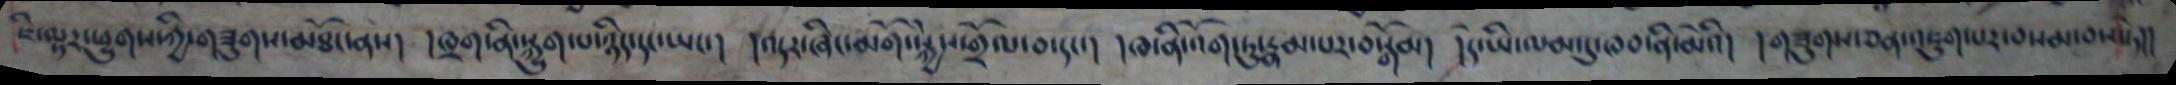ཇི་ལྟར་ཕྱུགས་ཀྱི་གཟུགས་མཐོང་ནས། །ཁྲག་ནི་སྐྱུག་པ་ཉིད་དང་ཡང་། །འདར་ཞིང་མགོ་སྐྱེས་གྲོལ་བ་དང་། །ཁ་ནི་འོག་ཏུ་རྣམ་པར་བསྒོམ། །དེ་ཡི་ལམ་དུ་ཁབ་ནི་མེའི། །གཟུགས་ཅན་འཇུག་པར་བསམ་བས་ཏེ།།
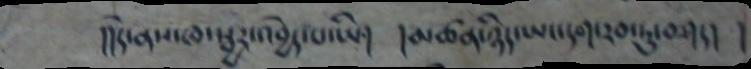།།དེ་ནས་ཁ་སྦྱར་འབྱེད་པ་ཡི། །མཚན་ཉིད་ཡང་དག་རབ་ཏུ་བཤད། །
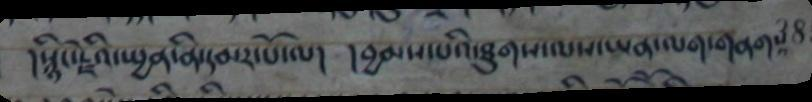།སྙིང་རྗེའི་སྤྱན་ནི་དམར་པོ་ལ།  །བྱམས་པའི་ཐུགས་ལས་ཡན་ལག་གནགས
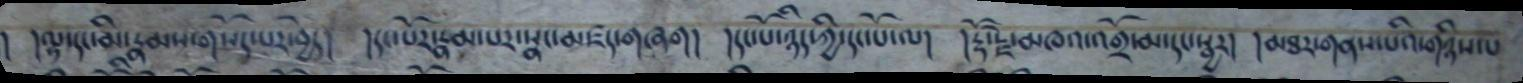། །ལྷ་དང་མི་རྣམས་གསོད་པར་བྱེད། །དང་པོར་རྣམ་པར་སྣང་མཛད་གཞག། །དང་པོ་ཉིད་ཀྱི་དང་པོ་ལ། །རྡོ་རྗེ་མཁའ་འགྲོ་མ་དང་སྦྱར། །མཐར་གནས་པའི་གཉིས་པ
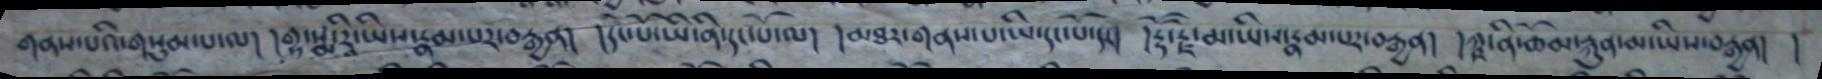གནས་པའི་གསུམ་པ་ལ། །གྷ་སྨ་རཱི་ཡིས་རྣམ་པར་བརྒྱན། །དང་པོ་ཡི་ནི་དང་པོ་ལ། །མཐར་གནས་པ་ཡི་དང་པོ་དང་། །རྡོ་རྗེ་མ་ཡིས་རྣམ་པར་བརྒྱན། །ཀྵ་ནི་ཆོམ་རྐུན་མ་ཡིས་བརྒྱན། །
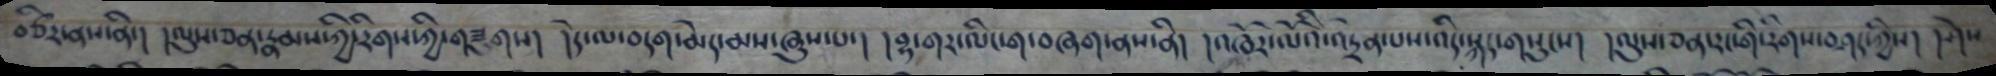བཙིར་ནས་ནི་། །ལུས་ཅན་རྣམས་ཀྱི་རིགས་ཀྱི་གཟུགས། །དེ་ལ་བདག་མེད་མས་ཞུས་པ་། །བྷ་གར་ལིང་ག་བཞག་ནས་ནི། །འཁོར་ལོའི་འདྲེན་པས་འདི་སྐད་གསུངས། །།ལུས་ཅན་རང་གི་རིགས་བཤད་ཀྱིས། །ཤེས
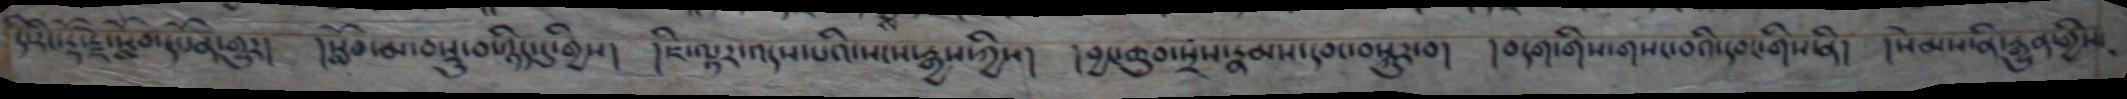དེ་རིང་རྡོ་རྗེ་སློབ་དཔོན་གྱུར། །སློབ་མ་བསྡུ་བ་ཉིད་དུ་གྱིས། །ཇི་ལྟར་འདས་པའི་སངས་རྒྱས་ཀྱིས། །བྱང་ཆུབ་སྲས་རྣམས་དབང་བསྐུར་བ། །བདག་གིས་གསང་བའི་དབང་གིས་ནི། །སེམས་ནི་རྒྱུན་གྱིས
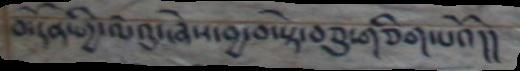མདོན་གྱི་ལེའུ་ཞེས་བྱ་བ་སྟེ་བཅུ་གཅིག་པའོ།།
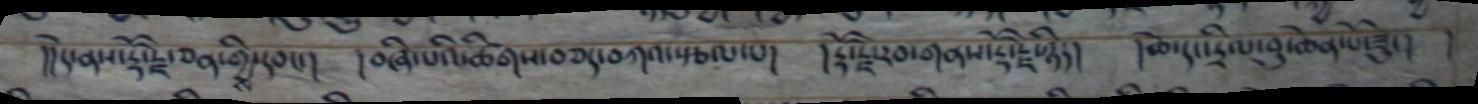།།དེ་ནས་རྡོ་རྗེ་ཅན་གྱི་དབང་། །བཞི་པའི་ཚིགས་བཅད་བཀའ་སྩལ་པ། །རྡོ་རྗེ་རབ་གནས་རྡོ་རྗེ་ཉིད། །ཆེ་དང་དྲིལ་བུ་ཆེན་པོ་ཟུང། །
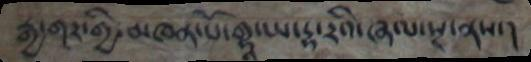རྒྱ་གར་གྱི་མཁན་པོ་གྷཱ་ཡ་དྷ་རའི་ཞལ་སྔ་ནས་།
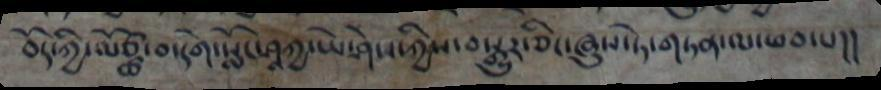བོད་ཀྱི་ལོཙྪ་བ་དགེ་སློང་ཤཱཀྱ་ཡེ་ཤེས་ཀྱིས་བསྒྱུར་ཅིང་ཞུས་ཏེ་གཏན་ལ་ཕབ་པ།།
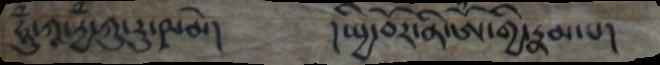ཧཱུཾ་ཀཱ་རྱཾ་ཀུ་རུ་ཥ་མེ། །སྤྱི་བོར་ནི་ཨོཾ་གྱི་རྣམ་པ།
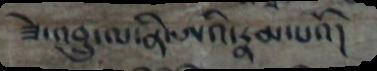ཟེ་འབྲུ་ལ་ནི་ཨའི་རྣམ་པའོ།
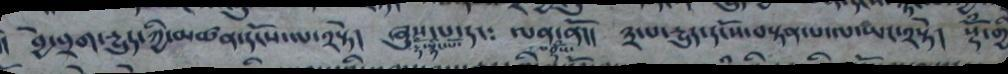། བྱེ་བྲག་དྱུད་ཀྱི་མཚན་དངོས་ལ་༢སྟེ།  ཞུས་པ་དང༴	   ལན་ནོ།། ༣་པ་དྱུད་དངོས་བསྟན་པ་ལ་ཡང་༢སྟེ།   སྡོཾ་གྱི
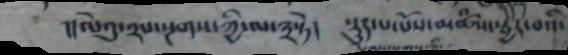།།ལེའུ་༢པ་སྔགས་ཀྱི་ལ་༣སྟེ། སྡུད་པ་པོས་མཚཾས་སྦྱར་བའི་
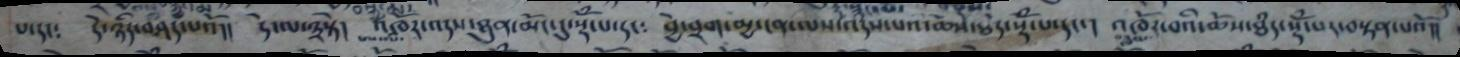པ་དང༴	  དེ་ཉིད་བཤད་པའོ།།  དེ་ལ་༣སྟེ།  འཁོར་འདས་ཐུན་མོང་དུ་སྡོཾ་པ་དང༴	བྱེ་བྲག་མྱ་ངན་ལས་འདས་པའོ་ཆེས་ཐཾད་སྡོཾ་པ་དང་།  འཁོར་བའི་ཆོས་ཐཾད་སྡོཾ་པར་བསྟན་པའོ།།
